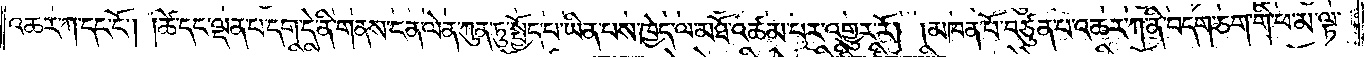འཆར་ཀ་དང་ངོ༌། །ཚེ་དང་ལྡན་པ་དག་དེ་ནི་གནས་ངན་ལེན་ཀུན་ཏུ་སྤྱོད་པ་ཡིན་པས་ཁྱེད་ལ་མཐོ་འཚམ་པར་འགྱུར་རོ། །མཁན་པོ་བཙུན་པ་འཆར་ཀ་ནི་བདག་ཅག་གི་ཕ་མ་ལྟ་
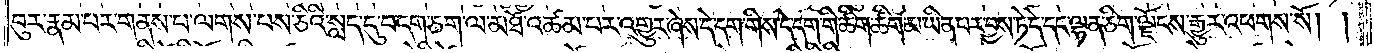བུར་རྣམ་པར་གནས་པ་ལགས་པས་ཅིའི་སླད་དུ་བདག་ཅག་ལ་མཐོ་འཚམ་པར་འགྱུར་ཞེས་དེ་དག་གིས་དེ་དག་གི་ཚིག་ཚིག་མ་ཡིན་པར་བྱས་ཏེ་དེ་དང་ལྷན་ཅིག་ལྗོངས་རྒྱུར་འཕགས་སོ། །
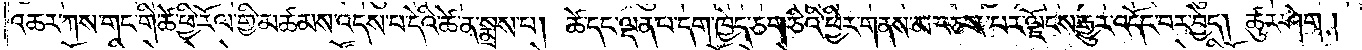འཆར་ཀས་གང་གི་ཚེ་ཕྱི་རོལ་གྱི་མཚམས་འདས་པ་དེའི་ཚེ་ན་སྨྲས་པ། ཚེ་དང་ལྡན་པ་དག་ཁྱེད་ཅག་ཅིའི་ཕྱིར་གནས་མ་བཅས་པར་ལྗོངས་རྒྱུར་འདོང་བར་བྱེད། ཚུར་ཤེག །
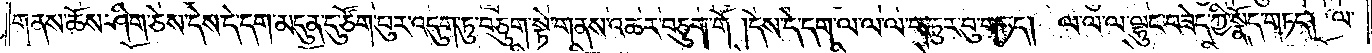གནས་ཆོས་ཤིག་ཅེས་དེས་དེ་དག་མདུན་དུ་ཙོག་པུར་འདུག་ཏུ་བཅུག་སྟེ་གནས་འཆར་བཅུག་གོ །དེས་དེ་དག་ལ་ལ་ལ་གཏུར་བུ་གཏད། ལ་ལ་ལ་ལྷུང་བཟེད་ཀྱི་སྣོད་གཏད། ལ་
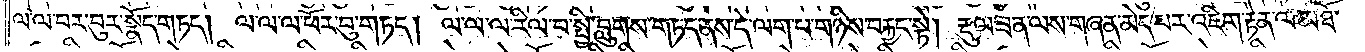ལ་ལ་བར་པུར་སྣོད་གཏད། ལ་ལ་ལ་ཕོར་བུ་གཏད། ལ་ལ་ལ་རིལ་པ་སྤྱི་བླུགས་གཏད་ནས་དེ་ལག་པ་གཉིས་བརྐྱང་སྟེ། རྡུལ་ཟན་ལས་གཞན་མེད་པར་འཇིག་རྟེན་ལ་མཐོ་
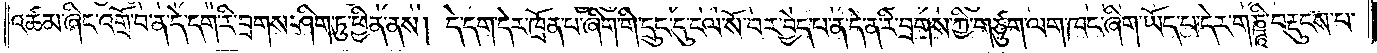འཚམ་ཞིང་འགྲོ་བ་ན་དེ་དག་རི་བྲགས་ཤིག་ཏུ་ཕྱིན་ནས། དེ་དག་དེར་ཁྲོན་པ་ཞིག་གི་དྲུང་དུ་ངལ་སོ་བར་བྱེད་པ་ན་དེ་ན་རི་བྲགས་ཀྱི་གཙུག་ལག་ཁང་ཞིག་ཡོད་པ་དེར་གཎྜཱི་བརྡུངས་པ་
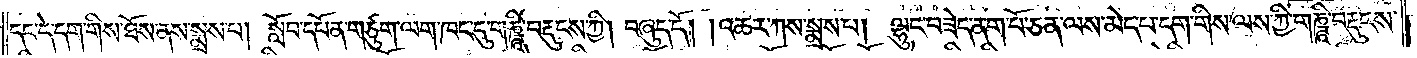དང་དེ་དག་གིས་ཐོས་ནས་སྨྲས་པ། སློབ་དཔོན་གཙུག་ལག་ཁང་དུ་གཎྜཱི་བརྡུངས་ཀྱི། བཞུད་དོ། །འཆར་ཀས་སྨྲས་པ། ལྷུང་བཟེད་ནག་པོ་ཅན་ལས་མེད་པ་དག་གིས་ལས་ཀྱི་གཎྜཱི་བརྡུངས་
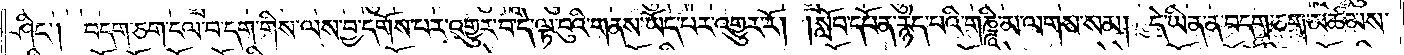ཤིང༌། བདག་ཅག་ངལ་བ་དག་གིས་ལས་བྱ་དགོས་པར་འགྱུར་བ་དེ་ལྟ་བུའི་གནས་ཡོད་པར་འགྱུར་རོ། །སློབ་དཔོན་རྙེད་པའི་གཎྜཱི་མ་ལགས་སམ། དེ་ཡིན་ན་བདག་ཅག་མཚམས་
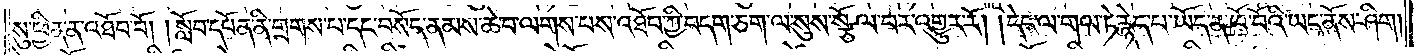སུ་ཕྱིན་ན་འཐོབ་བོ། །སློབ་དཔོན་ནི་གྲགས་པ་དང་བསོད་ནམས་ཆེ་བ་ལགས་པས་འཐོབ་ཀྱི་བདག་ཅག་ལ་སུས་སྩོལ་བར་འགྱུར་རོ། །དེང་ལ་གལ་ཏེ་རྙེད་པ་ཡོད་ན་ཁོ་བོའི་ཡང་ནོས་ཤིག།
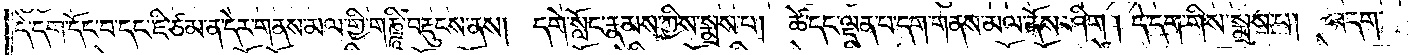དེ་དག་དོང་པ་དང་ཇི་ཙམ་ན་དེར་གནས་མལ་གྱི་གཎྜཱི་བརྡུངས་ནས། དགེ་སློང་རྣམས་ཀྱིས་སྨྲས་པ། ཚེ་དང་ལྡན་པ་དག་གནས་མལ་ནོས་ཤིག །དེ་དག་གིས་སྨྲས་པ། བདག་
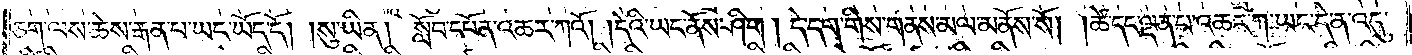ཅག་ལས་ཆེས་རྒན་པ་ཡང་ཡོད་དོ། །སུ་ཡིན། སློབ་དཔོན་འཆར་ཀའོ། །དེའི་ཡང་ནོས་ཤིག །དེ་དག་གིས་གནས་མལ་མནོས་སོ། །ཚེ་དང་ལྡན་པ་འཆར་ཀ་ཡང་དེ་ན་འདུ་
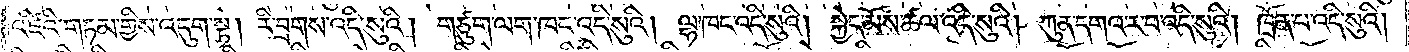འཛིའི་གཏམ་གྱིས་འདུག་སྟེ། རི་བྲགས་འདི་སུའི། གཙུག་ལག་ཁང་འདི་སུའི། ལྷ་ཁང་འདི་སུའི། སྐྱེད་མོས་ཚལ་འདི་སུའི། ཀུན་དགའ་ར་བ་འདི་སུའི། ཁྲོན་པ་འདི་སུའི།
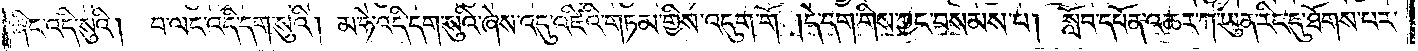ཞིང་འདི་སུའི། བ་ལང་འདི་དག་སུའི། མ་ཧེ་འདི་དག་སུའི་ཞེས་འདུ་འཛིའི་གཏམ་གྱིས་འདུག་གོ །དེ་དག་གིས་ཀྱང་བསམས་པ། སློབ་དཔོན་འཆར་ཀ་ཡུན་རིང་དུ་ཐོགས་པར་
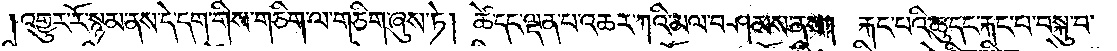འགྱུར་རོ་སྙམ་ནས་དེ་དག་གིས་གཅིག་ལ་གཅིག་ཞུས་ཏེ། ཚེ་དང་ལྡན་པ་འཆར་ཀའི་མལ་བཤམས་ནས། རྐང་པའི་ཆུ་དང་རྐང་པ་བསྐུ་བ་
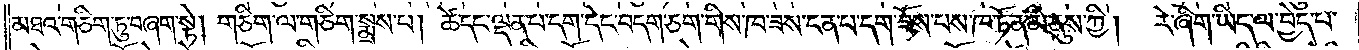མཐའ་གཅིག་ཏུ་བཞག་སྟེ། གཅིག་ལ་གཅིག་སྨྲས་པ། ཚེ་དང་ལྡན་པ་དག་དེང་བདག་ཅག་གིས་ཁ་ཟས་ངན་པ་དག་ཟོས་པས་ཁ་ཏོན་མི་ནུས་ཀྱི། རེ་ཞིག་ཡིད་ལ་བྱེད་པ་
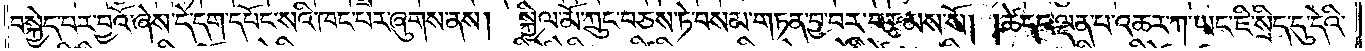བསྐྱེད་པར་བྱའོ་ཞེས་དེ་དག་དཔོང་སའི་ཁང་པར་ཞུགས་ནས། སྐྱིལ་མོ་ཀྲུང་བཅས་ཏེ་བསམ་གཏན་བྱ་བར་བརྩམས་སོ། །ཚེ་དང་ལྡན་པ་འཆར་ཀ་ཡང་ཇི་སྲིད་དུ་དེའི་
